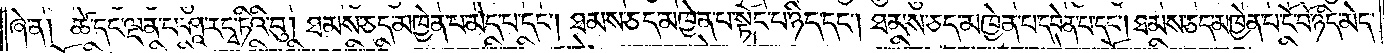ཞེ་ན། ཚེ་དང་ལྡན་པར་ཤཱ་རདྭ་ཏིའི་བུ། ཐམས་ཅད་མཁྱེན་པ་མེད་པ་དང༌། ཐམས་ཅད་མཁྱེན་པ་སྟོང་པ་ཉིད་དང༌། ཐམས་ཅད་མཁྱེན་པ་དབེན་པ་དང༌། ཐམས་ཅད་མཁྱེན་པ་ངོ་བོ་ཉིད་མེད་
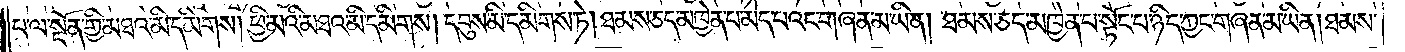པ་ལ་སྔོན་གྱི་མཐའ་མི་དམིགས། ཕྱི་མའི་མཐའ་མི་དམིགས། དབུས་མི་དམིགས་ཏེ། ཐམས་ཅད་མཁྱེན་པ་མེད་པའང་གཞན་མ་ཡིན། ཐམས་ཅད་མཁྱེན་པ་སྟོང་པ་ཉིད་ཀྱང་གཞན་མ་ཡིན། ཐམས་
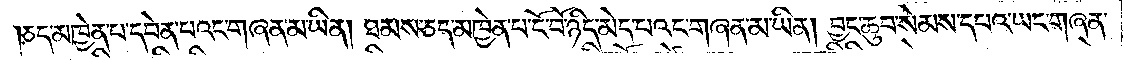ཅད་མཁྱེན་པ་དབེན་པའང་གཞན་མ་ཡིན། ཐམས་ཅད་མཁྱེན་པ་ངོ་བོ་ཉིད་མེད་པའང་གཞན་མ་ཡིན། བྱང་ཆུབ་སེམས་དཔའ་ཡང་གཞན་
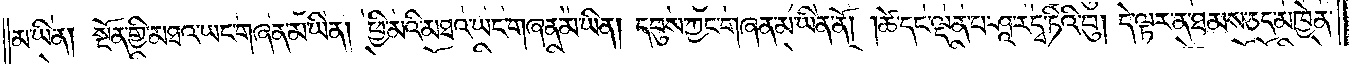མ་ཡིན། སྔོན་གྱི་མཐའ་ཡང་གཞན་མ་ཡིན། ཕྱི་མའི་མཐའ་ཡང་གཞན་མ་ཡིན། དབུས་ཀྱང་གཞན་མ་ཡིན་ནོ། །ཚེ་དང་ལྡན་པར་ཤཱ་རདྭ་ཏིའི་བུ། དེ་ལྟར་ན་ཐམས་ཅད་མཁྱེན་
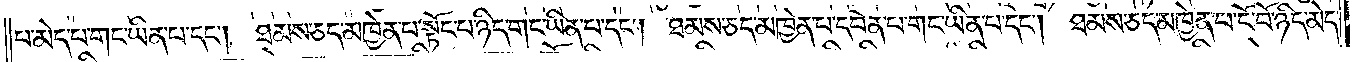པ་མེད་པ་གང་ཡིན་པ་དང༌། ཐམས་ཅད་མཁྱེན་པ་སྟོང་པ་ཉིད་གང་ཡིན་པ་དང༌། ཐམས་ཅད་མཁྱེན་པ་དབེན་པ་གང་ཡིན་པ་དང༌། ཐམས་ཅད་མཁྱེན་པ་ངོ་བོ་ཉིད་མེད་
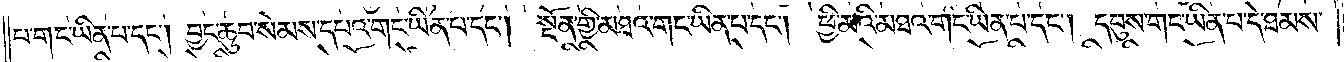པ་གང་ཡིན་པ་དང༌། བྱང་ཆུབ་སེམས་དཔའ་གང་ཡིན་པ་དང༌། སྔོན་གྱི་མཐའ་གང་ཡིན་པ་དང༌། ཕྱི་མའི་མཐའ་གང་ཡིན་པ་དང༌། དབུས་གང་ཡིན་པ་དེ་ཐམས་
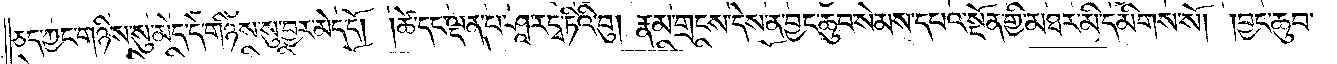ཅད་ཀྱང་གཉིས་སུ་མེད་དེ་གཉིས་སུ་བྱར་མེད་དོ། །ཚེ་དང་ལྡན་པ་ཤཱ་རདྭ་ཏིའི་བུ། རྣམ་གྲངས་དེས་ནི་བྱང་ཆུབ་སེམས་དཔའ་སྔོན་གྱི་མཐར་མི་དམིགས་སོ། །བྱང་ཆུབ་
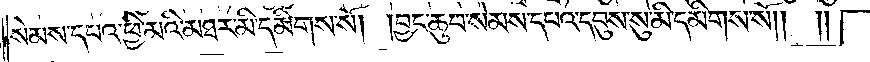སེམས་དཔའ་ཕྱི་མའི་མཐར་མི་དམིགས་སོ། །བྱང་ཆུབ་སེམས་དཔའ་དབུས་སུ་མི་དམིགས་སོ༎<gap>༎
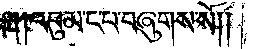། །འབུམ་ང་པ་བཞུགས་སོ༎
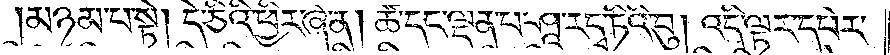མཉམ་པ་སྟེ། དེ་ཅིའི་ཕྱིར་ཞེ་ན། ཚེ་དང་ལྡན་པ་ཤཱ་ར་དྭ་ཏིའི་བུ། འདི་ལྟར་དཔེར་
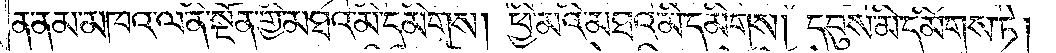ན་ནམ་མཁའ་ལ་ནི་སྔོན་གྱི་མཐའ་མི་དམིགས། ཕྱི་མའི་མཐའ་མི་དམིགས། དབུས་མི་དམིགས་ཏེ།
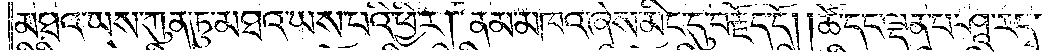མཐའ་ཡས་ཀུན་ཏུ་མཐའ་ཡས་པའི་ཕྱིར། ནམ་མཁའ་ཞེས་མིང་དུ་བརྗོད་དོ། །ཚེ་དང་ལྡན་པ་ཤཱ་ར་དྭ་
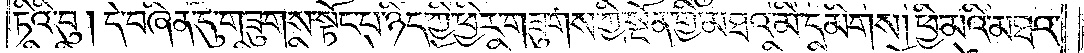ཏིའི་བུ། དེ་བཞིན་དུ་གཟུགས་སྟོང་པ་ཉིད་ཀྱི་ཕྱིར་གཟུགས་ཀྱི་སྔོན་གྱི་མཐའ་མི་དམིགས། ཕྱི་མའི་མཐའ་
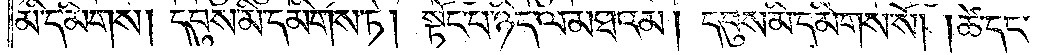མི་དམིགས། དབུས་མི་དམིགས་ཏེ། སྟོང་པ་ཉིད་ལ་མཐའམ། དབུས་མི་དམིགས་སོ། །ཚེ་དང་
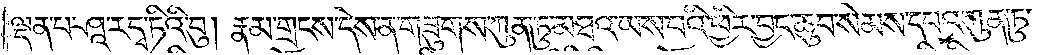ལྡན་པ་ཤཱ་ར་དྭ་ཏིའི་བུ། རྣམ་གྲངས་དེས་ན་གཟུགས་ཀུན་ཏུ་མཐའ་ཡས་པའི་ཕྱིར་བྱང་ཆུབ་སེམས་དཔའ་ཀུན་ཏུ་
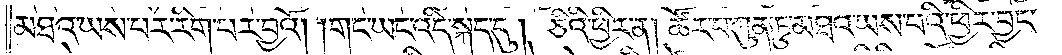མཐའ་ཡས་པར་རིག་པར་བྱའོ། །གང་ཡང་འདི་སྐད་དུ། ཅིའི་ཕྱིར་ན། ཚོར་བ་ཀུན་ཏུ་མཐའ་ཡས་པའི་ཕྱིར་བྱང་
